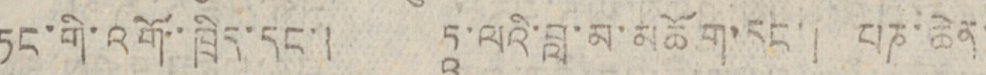ཏང་གི་འགོ་ཁྲིད་དང་། ཏཱ་ལའི་བླ་མ་མཆོག་དང་། པཎ་ཆེན་
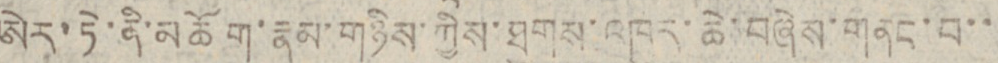ཨེར་ཏེ་ནི་མཆོག་རྣམ་གཉིས་ཀྱིས་ཐུགས་འཁུར་ཆེ་བཞེས་གནང་བ་་
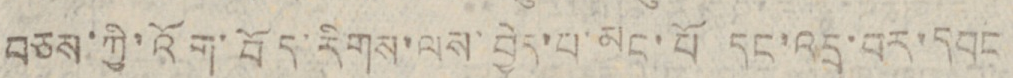བཅས་ཀྱི་འོག་བོད་རིགས་ལས་བྱེད་པ་མང་པོ དང་འདྲ་བར་དབང
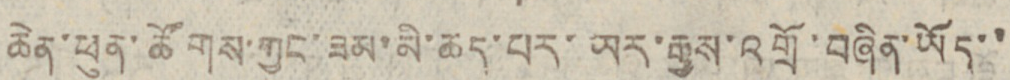ཆེན་ཕུན་ཚོགས་ཀྱང་ཟམ་མི་ཆད་པར་ཡར་རྒྱས་འགྲོ་བཞིན་ཡོད་་
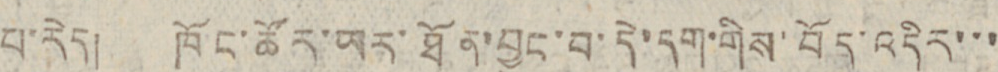པ་རེད། ཁོང་ཚོར་ཡར་ཐོན་བྱུང་བ་དེ་དག་གིས་བོད་འདིར་་་
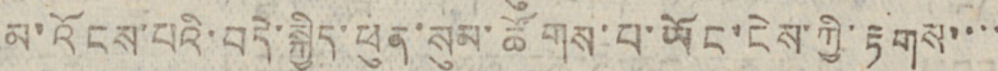མ་འོངས་པའི་བདེ་སྐྱིད་ཕུན་སུམ་ཚོགས་པ་ཡོང་ངེས་ཀྱི་རྟགས་་་་
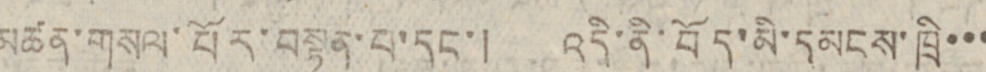མཚན་གསལ་པོར་བསྟན་པ་དང་། འདི་ནི་བོད་མི་དམངས་ཁྲི་་་
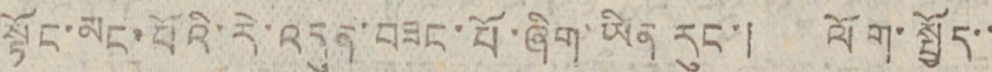སྟོང་མང་པོའི་རེ་འདུན་བཟང་པོ་ཞིག་ཡིན རུང་། ལོག་སྤྱོད་་
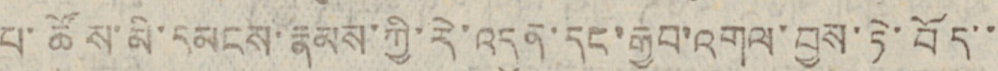པ་ཚོས་མི་དམངས་རྣམས་ཀྱི་རེ་འདུན་དང་རྒྱབ་འགལ་བྱས་ཏེ་བོད་་
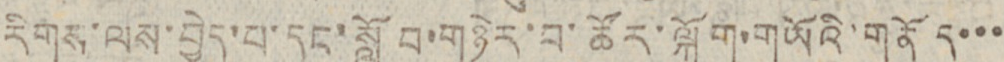རིགས་ལས་བྱེད་པ་དང་སློབ་གཉེར་བ་ཚོར་ལྐོག་གཡོའི་གནོད་་་
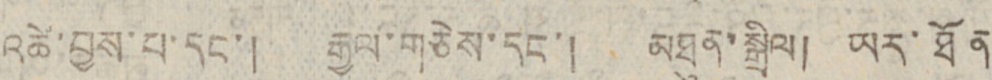འཚེ་བྱས་པ་དང་། རྒྱལ་གཅེས་དང་། མཐུན་སྒྲིལ། ཡར་ཐོན་
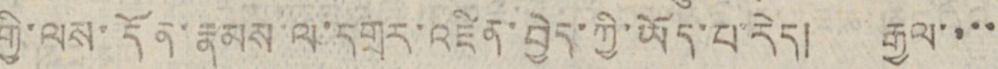གྱི་ལས་དོན་རྣམས་ལ་དགྲར་འཛིན་བྱེད་ཀྱི་ཡོད་པ་རེད། རྒྱལ་་་་
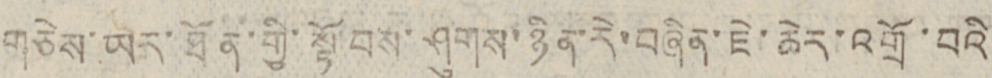གཅེས་ཡར་ཐོན་གྱི་སྟོབས་ཤུགས་ཉིན་རེ་བཞིན་ཇེ་ཆེར་འགྲོ་བའི་
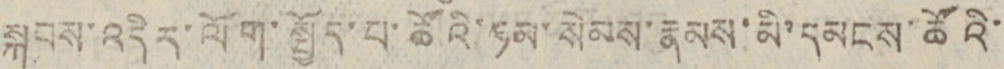སྐབས་འདིར་ལོག་སྤྱོད་པ་ཚོའི་ཧམ་སེམས་རྣམས་མི་དམངས་ཚོའི་
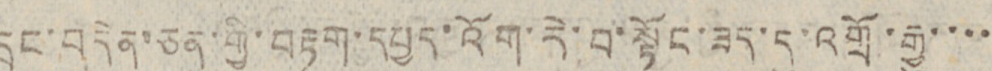དྲང་བདེན་ཅན་གྱི་བརྟག་དཔྱད་འོག་རེ་བ་སྟོང་ཟད་དུ་འགྲོ་རྒྱུ་་་་
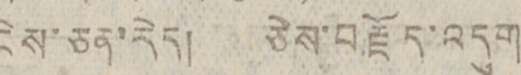ངེས་ཅན་རེད། ཅེས་བརྗོད་འདུག
